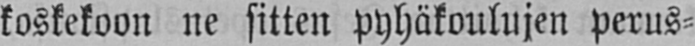koskekoon ne sitten pyhäkoulujen perus-
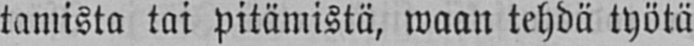tamista tai pitämistä, waan tehdä työtä
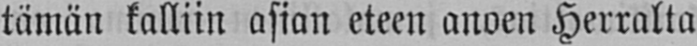tämän kalliin asian eteen anoen Herralta
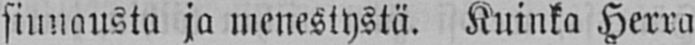siunausta ja menestystä. Kuinka Herra
